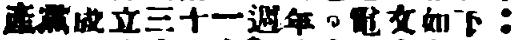產黨成立三十一週年，電文如下：
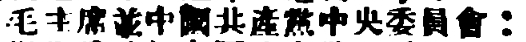毛主席並中國共產黨中央委員會：
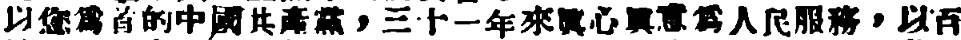以您爲首的中國共產黨，三十一年來眞心眞意爲人民服務，以百
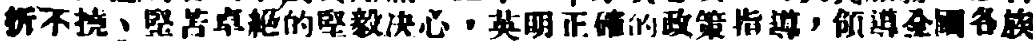折不撓、艱苦卓絕的建議決心，英明正確的政策指导，領導全國各族
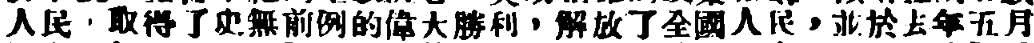人民，取得了史無前例的偉大勝利，解放了全國人民，並於去年五月
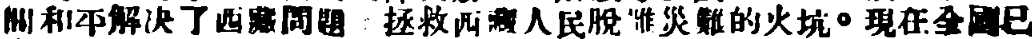間和平解決了西藏問題，拯救西藏人民脫離災難的火坑。現在全國已
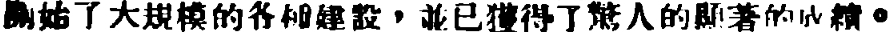開始了大規模的各種建設，並已獲得了驚人的顯著的成績。
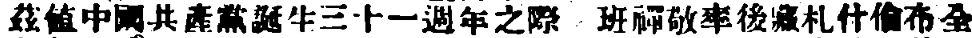茲値中國共產黨誕生三十一週年之際，班禪敬率後藏札什倫布全
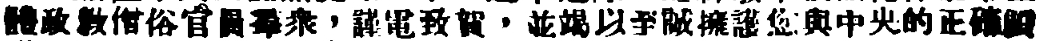體政教僧俗官員羣衆，謹電致賀，並竭以至誠擁護您與中央的正確領
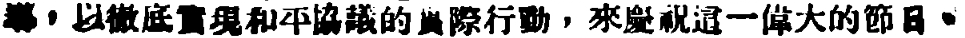導，以徹底實現和平協議的實際行動，來慶祝這一偉大的節日。
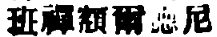班禪額爾德尼
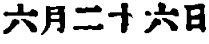六月二十六日
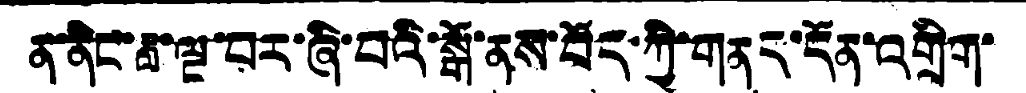ན་ནིང་ཟླ་ལྔ་བར་ཞི་བའི་སྒོ་ནས་བོད་ཀྱི་གནད་དོན་འགྲིག་
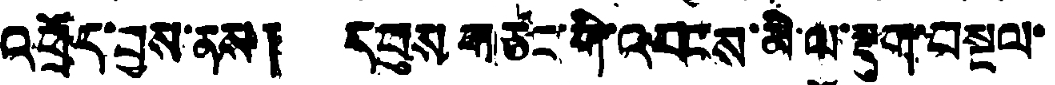འཕྲོད་བྱས་ནས། དབུས གཙང་གི་འབངས་མི་ལ་སྡུག་བསྔལ་
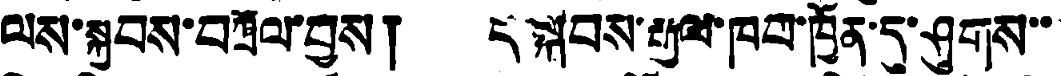ལས་སྐྱབས་བཀྲོལ་བྱས། དེ་སྐབས་རྒྱལ་ཁབ་ཁྱོན་དུ་ཤུགས་་
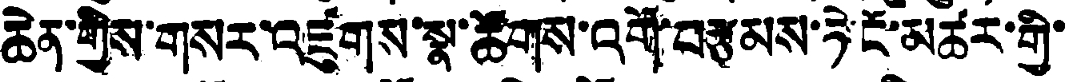ཆེན་གྱིས་གསར་འཛུགས་སྣ་ཚོགས་འགོ་བརྩམས་ཏེ་ངོ་མཚར་གྱི་
